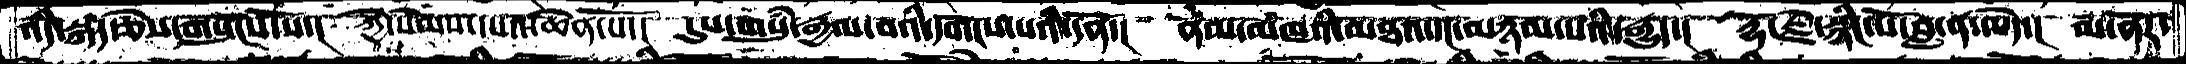འདི་སྐད་ཅེས་གསུངས་སོ་།  ཀྱེ་སེམས་དཔའ་ཆེན་པོ་།  དུས་གསུཾ་རྒྱལ་བའི་དགོངས་པའི་དོན་།  ནམ་མཁའི་མཐའ་དང་མཉམ་པའི་རྒྱུད་།  རྡོ་རྗེ་སྙིང་པོ་བླ་ན་མེད་།  མ་ནོར་
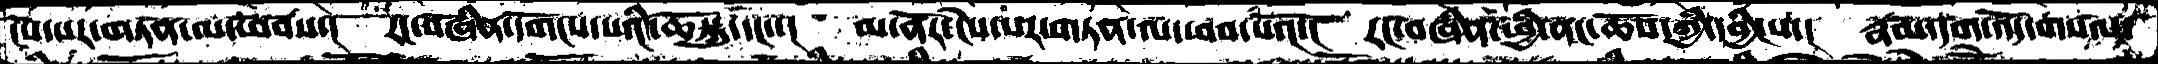ངེས་པར་གཏན་ལ་ཕབས་།  རང་བཞིན་དགོངས་པའི་ཆོསྐུ་དང་་།  མ་ནོར་ངེས་པར་གཏན་ལ་ཕབ་པའོ་།  རང་བཞིན་ཕྱི་ནང་ཆོས་ཀྱི་དབྱིངས་།  རྣམ་དག་འོད་གསལ་
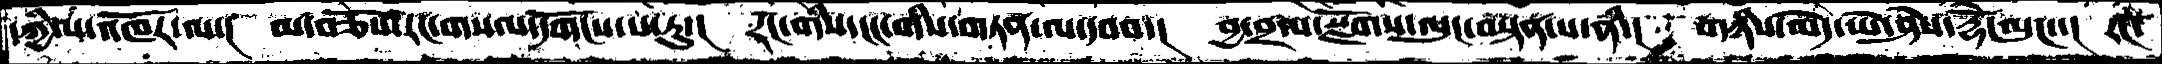དཀྱིལ་འཁོར་ལ་།  མ་བཅོས་རང་གསལ་དགོངས་པ་རུ་།  རང་གིས་ངང་གིས་གཏན་ལ་དབབ་།  བྱ་བྲལ་སྫོགས་ལུང་བསྟན་པ་ནི་།  གཉིས་མེད་ཡེ་ཤེས་རྡོེ་ལུང་་།  རང་
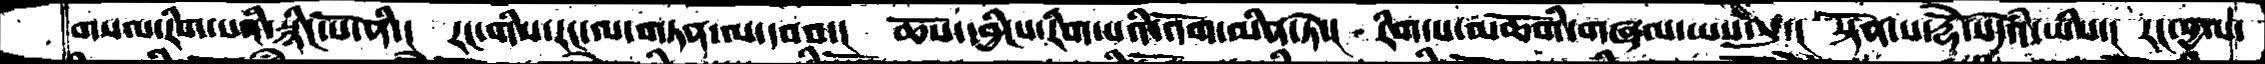གསལ་རིག་པའི་སྙིང་པོ་ནི་།  རང་གིས་རང་ལ་གཏན་ལ་དབབ་།  ཆོས་དབྱིངས་རིག་པའི་འོག་མིན་ཏེ་།  རིག་པ་མཆོགི་གཞལ་ཡས་སུ་།  སྟོན་པ་རྡོེ་སེདཾའ་ཡིས་།  རང་སྱལ་
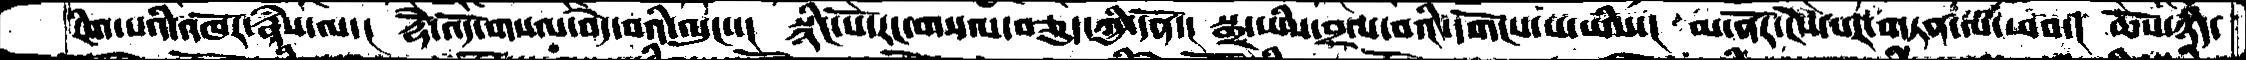རིག་པའི་འཁོར་རྣཾས་ལ་།  རྡོེ་འོད་གསལ་བདེ་བའི་ལུང་་།  སྙིང་པོ་རང་གསལ་བཅུད་ཀྱི་དོན་།  སྒྲ་ཡིས་བྲལ་བའི་དགོངས་པ་ཡིས་།  མ་ནོར་ངེས་པར་གཏན་ལ་ཕབ་།  ཆོས་ཉིད་
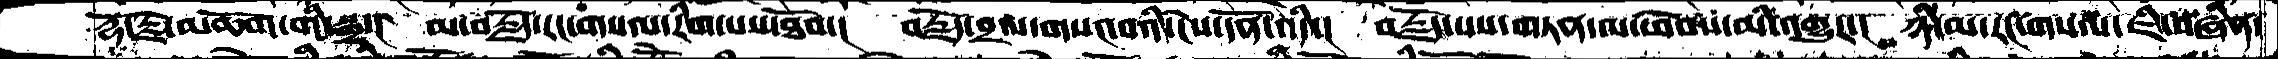རྡོ་རྗེ་མཆོག་གི་སྒྲ་།  མ་བརྗོད་རང་གསལ་རིག་པས་ཐོབ་།  བརྗོད་བྲལ་གསང་བའི་ངེས་དོན་འདི་།  བརྗོད་པས་གཏན་ལ་ཕེབས་མི་འགྱུར་།  ཉི་མ་རང་གསལ་ཇི་བཞིན་
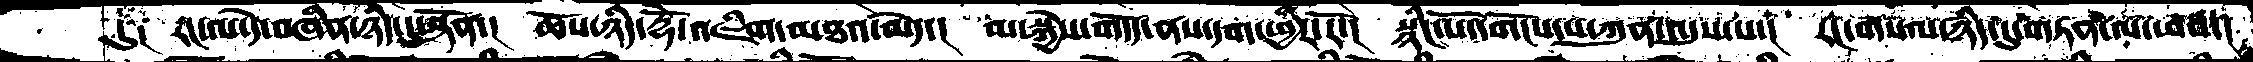དུ༑  རང་ལ་དེ་བཞིན་ཉིད་དུ་སྟོན་།  ཆོས་ཉིད་རྡོེ་འཇིག་མཐའ་མེད་།  མ་སྐྱེས་་གདོད་ནས་དག་ཕྱིར་རོ་།  སྙིང་པོ་དགོངས་པ་ཀུན་འདུས་པ་།  རང་གསལ་ཉིད་དུ་གཏན་ལ་ཕབ་།
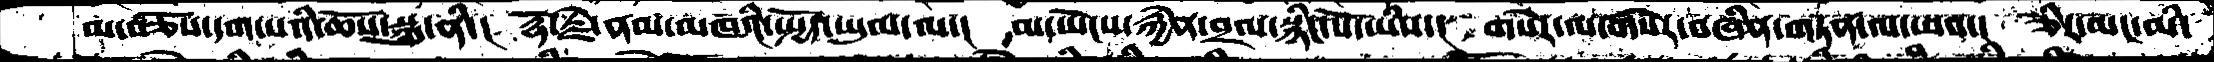མ་བཅོས་དག་པའི་ཆོས་སྐུ་ནི་།  རྡོ་རྗེ་ནམ་མཁའི་སྤྱོད་ཡུལ་ལ་།  མ་ཡེངས་རྐྱེན་བྲལ་སྙིང་པོ་ཡིས་།  གསེར་ལ་གསེར་བཞིན་གཏན་ལ་ཕབ་།  ཅིར་ཡང་མི་
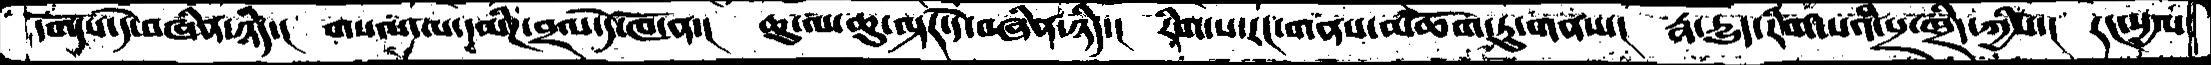དགོངས་དེ་བཞིན་ཉིད་། གསལ་ལ་དམིཌ་བྲལ་དེ་ཁོ་ན་། ཆུ་ལ་ཆུ་ལྟར་དེ་བཞིན་ཉིད་། རིག་པ་རང་གནས་མཆོག་ཏུ་གནས་། རྣ་དྱུད་རིག་པའི་པྲ་ཁྲིད་ཀྱིས་། རང་སྱལ་
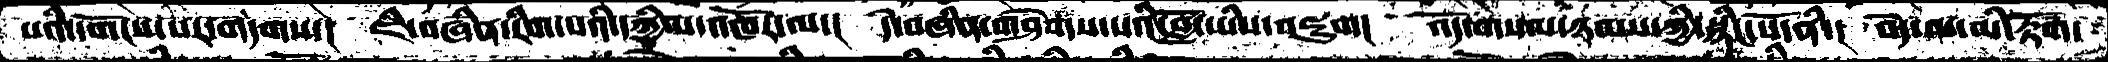པའི་དགོངས་པར་གདགས་།  ཇི་བཞིན་རིག་པའི་དཀྱིལ་འཁོར་ལ་།  དེ་བཞིན་གཤེགས་པའི་བློ་ཡིས་འཇུག།  འོད་གསལ་ཉམས་ཀྱི་སྙིང་པོ་ནི་།  བདེ་བ་མི་རྟོག་
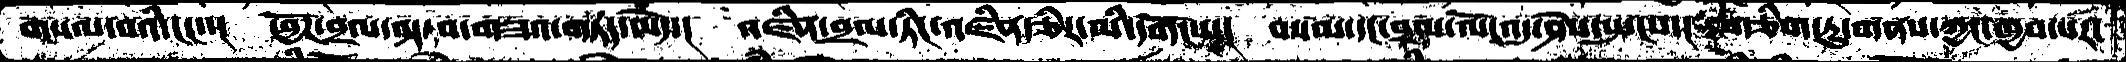གསལ་བའི་ངང་་།  ཕྱོཌ་བྲལ་ལྟ་བ་གཟའ་གཏད་མེད་།  འཛིན་བྲལ་ཏིང་འཛིན་ཅིར་མི་དགོངས་།  བསམ་དང་བྲལ་ལོ་འདུ་ཤེས་སྤངས་དངགཅིག་ཏུ་གནས་ཀྱང་ཁྱབ་པར་
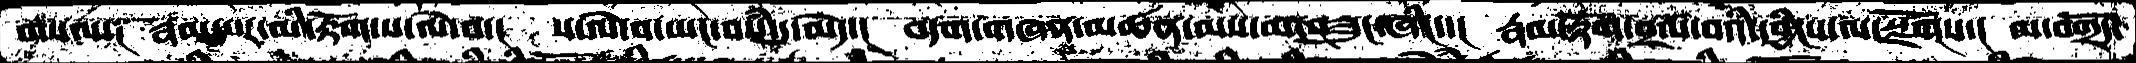གསལ།  རྣམ་པར་མི་རྟོག་ས་ལེ་བ་།  ས་ལེ་བ་ཡང་བསཾ་དུ་མེད་།  བདག་གཞན་མཚན་མས་མ་བཟུང་ཞིང་་།  རྣམ་རྟོག་བྲལ་བའི་དབྱིངས་ལ་སྫོགས་།  མ་བགྲོད་
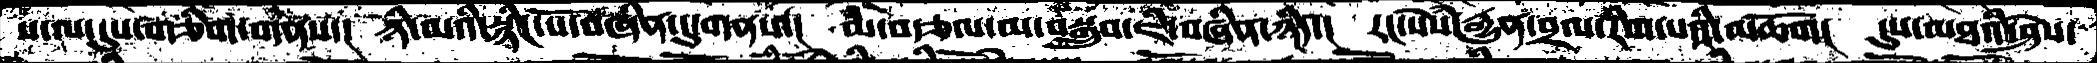ས་ལ་དུས་གཅིག་གནས་།  ཉི་མའི་སྙིང་པོ་བཞིན་དུ་གནས་།   མ་བརྩལ་མ་བསྒྲུབ་ཇི་བཞིན་ཉིད་།  རང་སེཾས་རྒྱུན་བྲལ་རིག་པའི་མཆོག།  དུས་མཐའི་ཤེས་
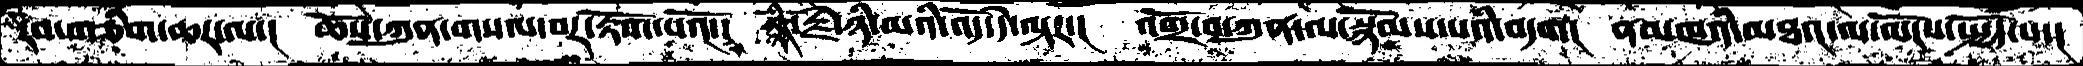རབ་གཅིག་ཆར་ལ་།  ཆོས་ཀུན་གསལ་བར་རྟོག་པའོ་།  སྙིང་རྗེ་ཉི་མའི་འོད་དེ་ལྟར་།  འགྲོ་བ་ཀུན་ལ་སྙོམས་པའི་བདག།   ནམཁའི་མཐའ་ལ་ལོངས་སྤྱོད་པ་།
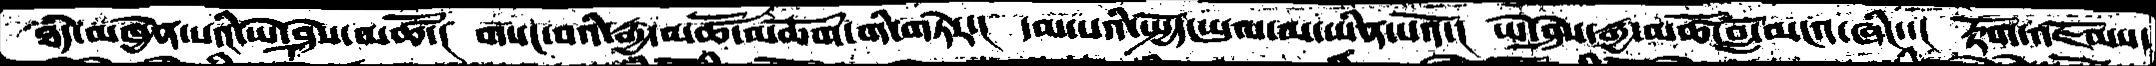ཐཾད་མཁྱེན་པའི་ཡེ་ཤེས་མཚོ་།  གསང་བའི་རྒྱ་མཚོ་མཆོག་གི་གཏེར་།  དམ་པའི་སྤྱོད་ཡུལ་མ་ཡིན་པའོ་།  ཡེ་ཤེས་རྒྱ་མཚོ་བློ་མངའ་ཞིང་་།  རྟོག་འཇོམས་
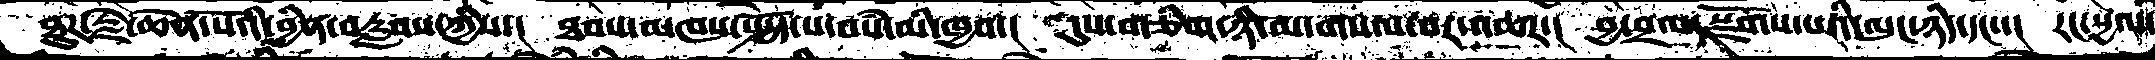ཐུཌ་རྗེ་ཆེན་པོའི་བྱིན་བརླབས་ཀྱིས་།  ཐབས་མཁས་སྤྱོད་པ་བསཾ་མི་ཁྱབ་།  དུས་གཅིག་ཉི་མ་གསལ་བར་འཆར་།  བྱ་བྲལ་སྫོགས་པའི་ལུང་ཉིད་དང་་།  རང་སྱལ་
